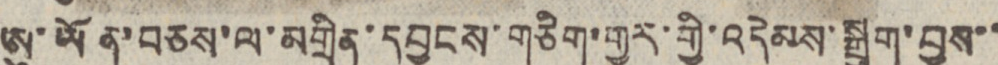ཨུ་ཡོན་བཅས་ལ་མགྲིན་དབྱངས་གཅིག་གྱུར་གྱི་འདེམས་སྐྲུག་བྱས་་
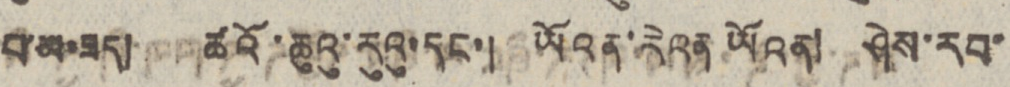པ་མ་ཟད། ཚའོ་ཆུའུ་རུའུ་དང་། ཡོའན་རེའན་ཡོའན། ཤེས་རབ་
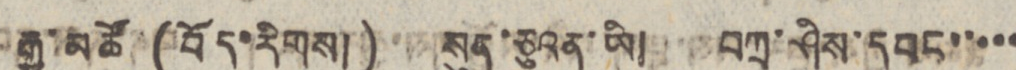རྒྱ་མཚོ (བོད་རིགས།) སུན་ཅུའན་ཡི། བཀྲ་ཤིས་དབང་་་་་
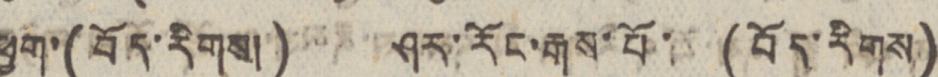ཕྱུག་(བོད་རིགས།) ཤར་རོང་རྒས་པོ་ (བོད་རིགས་)
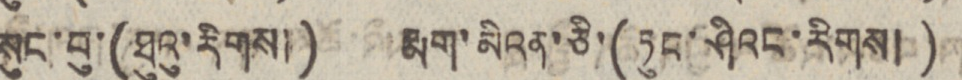སུང་བུ་(ཐུའུ་རིགས།) རྨག་མིའན་ཅི་(ཏུང་ཤིའང་རིགས།)
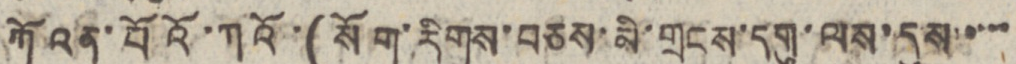ཀོའན་པོའོ་ཀའོ་(སོག་རིགས་བཅས་མི་གྲངས་དགུ་ལས་དུས་་་་་
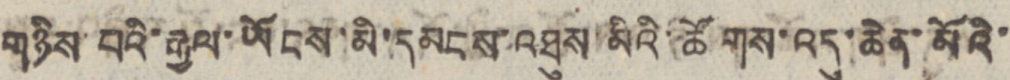གཉིས་པའི་རྒྱལ་ཡོངས་མི་དམངས་འཐུས་མིའི་ཚོགས་འདུ་ཆེན་མོའི་
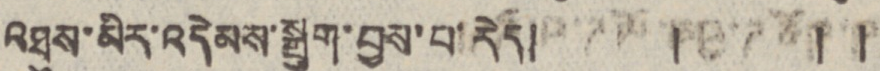འཐུས་མིར་འདེམས་སྒྲུག་བྱས་པ་རེད། ། ། །
